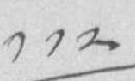༡༡༢
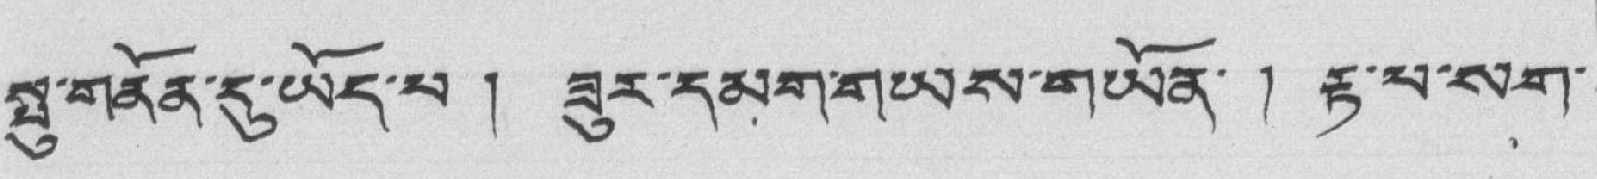སྤུ་གནོན་དུ་ཡོད་པ ། ཟུར་དམག་གཡས་གཡོན་ ། རྟ་པ་སག་
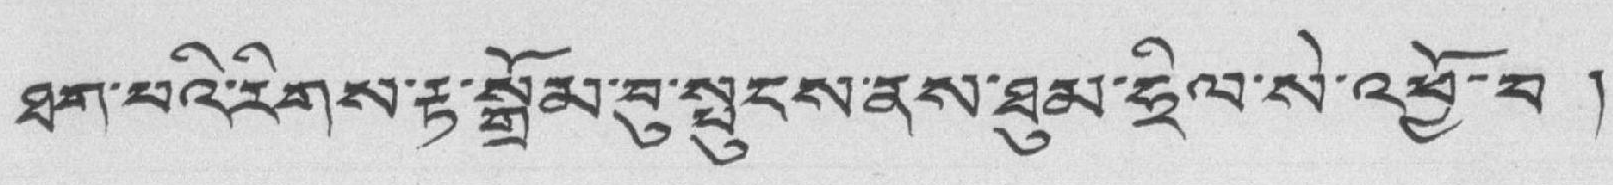ཐག་པའི་རིགས་རྟ་སྒྲོམ་བུ་སྤུངས་ནས་ཐུམ་ཧྲིལ་སེ་འཕྱོ་བ །
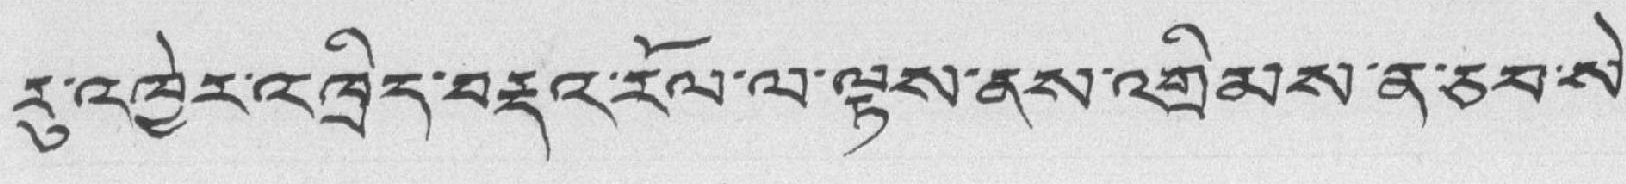རུ་འཁྱེར་འཁྲིད་བརྡའ་རོལ་ལ་ལྟས་ནས་འགྲིམས་ན་ཅབ་སེ་
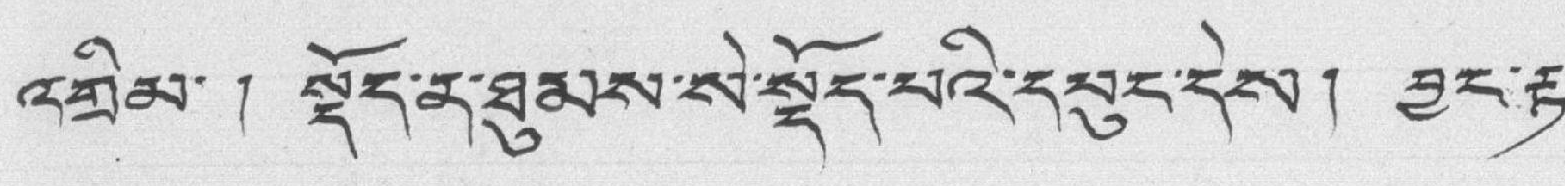འགྲིམ་ ། སྡོད་ན་ཐུམས་སེ་སྡོད་པའི་དཔུང་དེས། བྱང་རྟ་
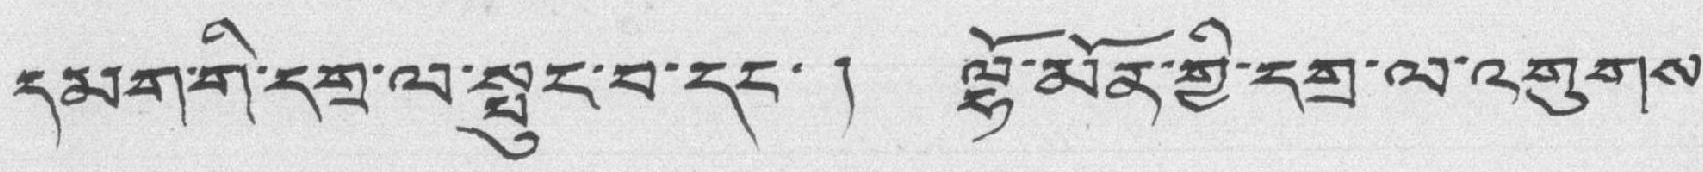དམག་གི་དགྲ་ལ་སྤུང་བ་དང་ ། ལྷོ་མོན་གྱི་དགྲ་ལ་འགུགས་
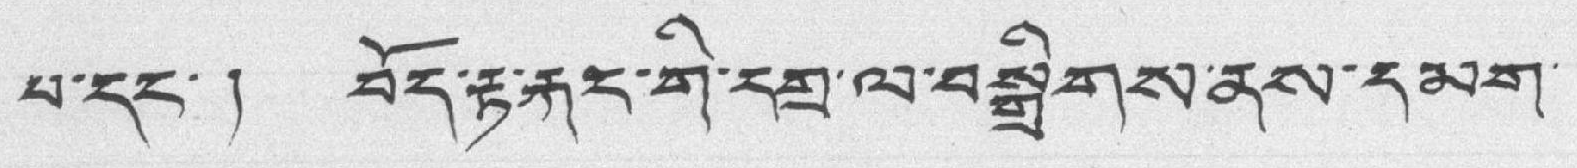པ་དང་། བོད་རྟ་རྐང་གི་དགྲ་ལ་བསྒྲིགས་ནས་དམག་
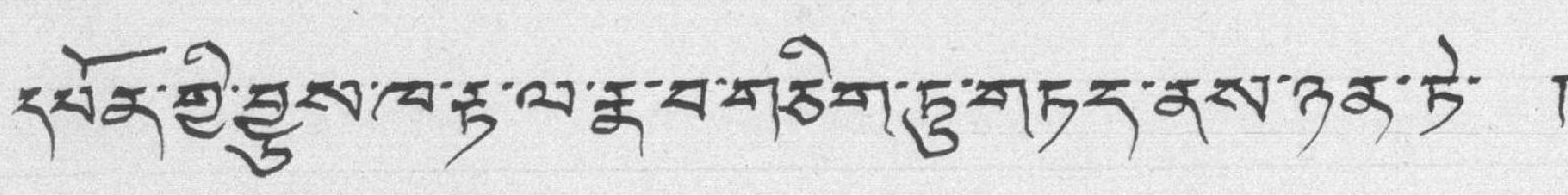དཔོན་གྱི་བྱུས་ཁ་རྟ་ལ་རྣ་བ་གཅིག་ཏུ་གཏད་ནས་ཉན་ཏེ་ །
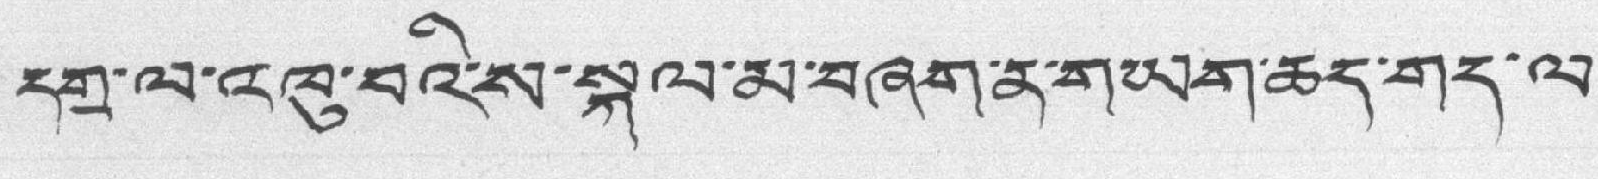དགྲ་ལ་འཁུ་བའི་ས་སྐལ་མ་བཞག་ན་གཡག་ཆད་གད་ལ་
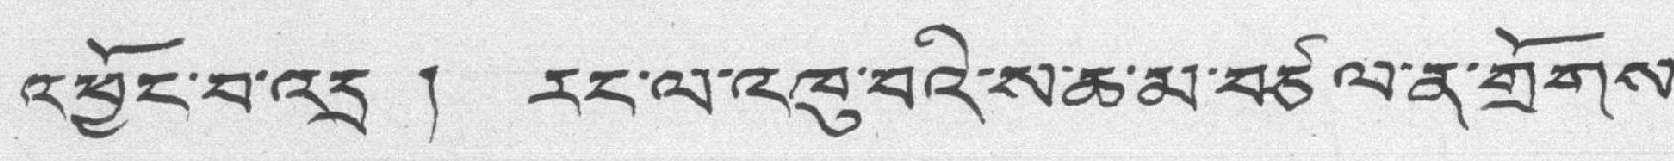འཕྱོང་བ་འདྲ ། རང་ལ་འཁུ་བའི་ས་ཆ་མ་བཙལ་ན་གྲོགས་
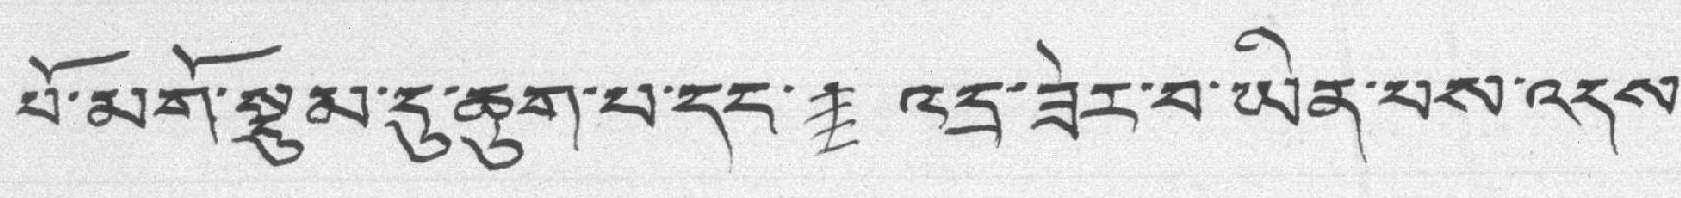པོ་མགོ་སྡུམ་དུ་ཆུག་པ་དང་ ། འདྲ་ཟེར་བ་ཡིན་པས་འདས་
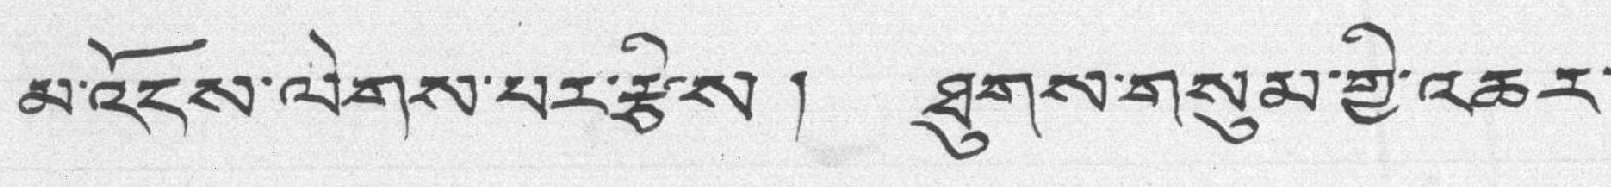མ་འོངས་ལེགས་པར་རྩིས ། ཐུགས་གསུམ་གྱི་འཆར་
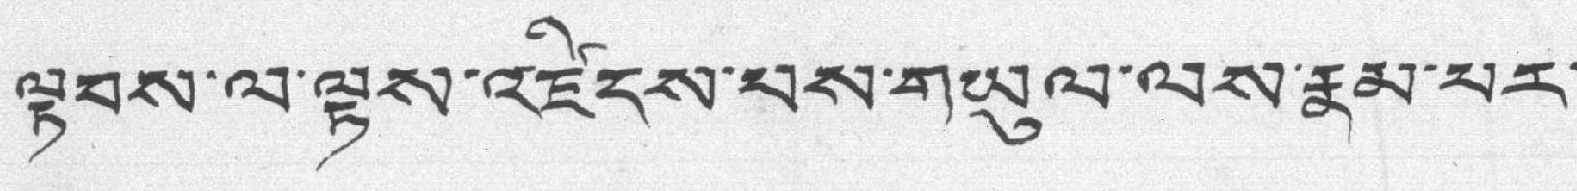ལྟབས་ལ་ལྟས་འཛིངས་པས་གཡུལ་ལས་རྣམ་པར་
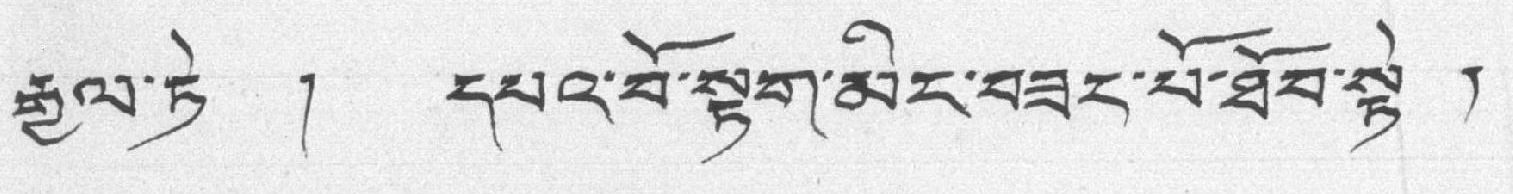རྒྱལ་ཏེ ། དཔའ་བོ་སྟག་མིང་བཟང་པོ་ཐོབ་སྟེ །
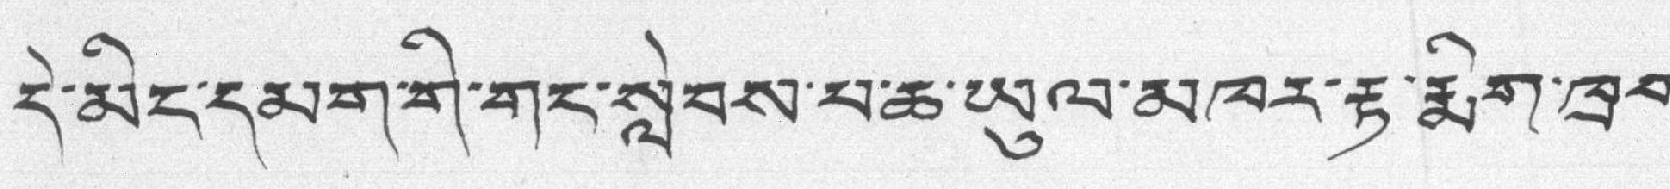དེ་མིང་དམག་གི་གང་སླེབས་པ་ཆ་ཡུལ་མཁར་རྟ་རྨིག་ཁྲབ་
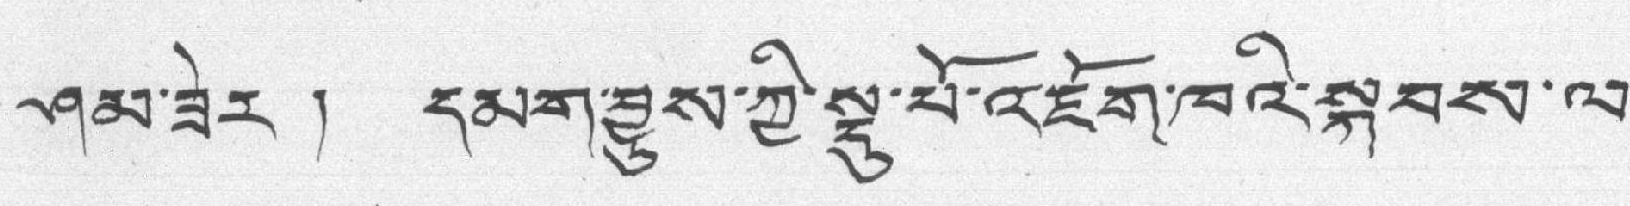ཤམ་ཟེར ། དམག་བྱུས་ཀྱི་སྡུ་པོ་འཇོག་ཁའི་སྐབས་ལ་
